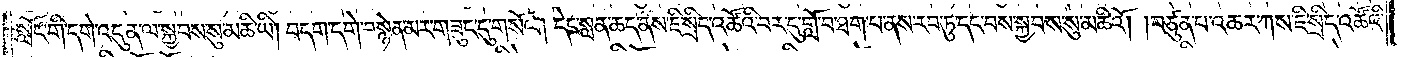སློང་གི་དགེ་འདུན་ལ་སྐྱབས་སུ་མཆི་ཡི། བདག་དགེ་བསྙེན་མར་གཟུང་དུ་གསོལ། དེང་སླན་ཆད་ནས་ཇི་སྲིད་འཚོའི་བར་དུ་གློ་བ་ཐག་པ་ནས་རབ་ཏུ་དང་བས་སྐྱབས་སུ་མཆིའོ། །བཙུན་པ་འཆར་ཀས་ཇི་སྲིད་འཚོའི་
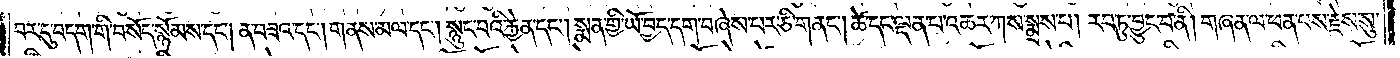བར་དུ་བདག་གི་བསོད་སྙོམས་དང༌། ན་བཟའ་དང༌། གནས་མལ་དང༌། སྙུང་བའི་རྐྱེན་དང༌། སྨན་གྱི་ཡོ་བྱད་དག་བཞེས་པར་ཅི་གནང༌། ཚེ་དང་ལྡན་པ་འཆར་ཀས་སྨྲས་པ། རབ་ཏུ་བྱུང་བ་ནི། གཞན་ལ་ཕན་པས་རྗེས་སུ་
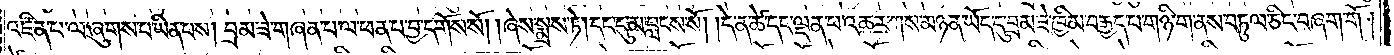འཛིན་པ་ལ་ཞུགས་པ་ཡིན་པས། བྲམ་ཟེ་གཞན་པ་ལ་ཕན་པ་བྱ་དགོས་སོ། །ཞེས་སྨྲས་ཏེ། དང་དུ་མ་བླངས་སོ། །དེ་ན་ཚེ་དང་ལྡན་པ་འཆར་ཀས་མཉན་ཡོད་དུ་བྲམ་ཟེ་ཁྱིམ་བརྒྱད་པ་གཉི་ག་ནས་བཏུལ་ཅིང་བཞག་གོ །
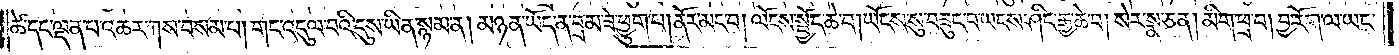ཚེ་དང་ལྡན་པ་འཆར་ཀས་བསམ་པ། གང་འདུལ་བའི་དུས་ཡིན་སྙམ་ན། མཉན་ཡོད་ན་བྲམ་ཟེ་ཕྱུག་པ། ནོར་མང་བ། ལོངས་སྤྱོད་ཆེ་བ། ཡོངས་སུ་བཟུང་བ་ཡང་ས་ཤིང་རྒྱ་ཆེ་བ། སེར་སྣ་ཅན། མིག་ཕྲ་བ། བྱ་རོག་ལ་ཡང་
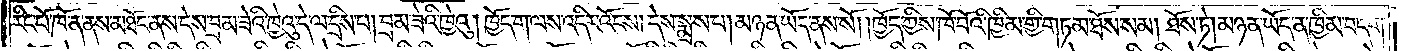རིང་པོ་ཁོ་ན་ནས་མཐོང་ནས་དེས་བྲམ་ཟེའི་ཁྱེའུ་དེ་ལ་དྲིས་པ། བྲམ་ཟེའི་ཁྱེའུ། ཁྱོད་ག་ལས་འདིར་འོངས། དེས་སྨྲས་པ། མཉན་ཡོད་ནས་སོ། །ཁྱོད་ཀྱིས་ཁོ་བོའི་ཁྱིམ་གྱི་གཏམ་ཐོས་སམ། ཐོས་ཏེ། མཉན་ཡོད་ན་ཁྱིམ་བདག་
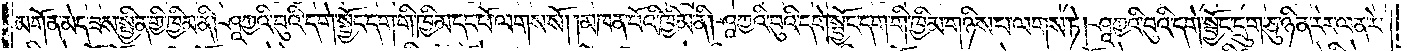མགོན་མེད་ཟས་སྦྱིན་གྱི་ཁྱིམ་ནི། ཤཱཀྱའི་བུའི་དགེ་སྦྱོང་དག་གི་ཁྱིམ་དང་པོ་ལགས་སོ། །མཁན་པོའི་ཁྱིམ་ནི། ཤཱཀྱའི་བུའི་དགེ་སྦྱོང་དག་གི་ཁྱིམ་གཉིས་པ་ལགས་ཏེ། ཤཱཀྱའི་བུའི་དགེ་སྦྱོང་དྲུག་ཅུ་ཉིན་རེར་ལན་རེ་
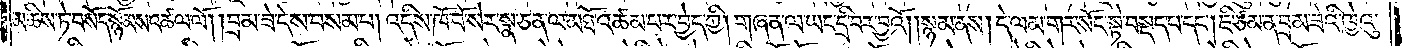མཆིས་ཏེ་བསོད་སྙོམས་འཚལ་ལོ། །བྲམ་ཟེ་དེས་བསམ་པ། འདིས་ཁོ་བོ་སེར་སྣ་ཅན་ལ་མཐོ་འཚམ་པར་བྱེད་ཀྱི། གཞན་ལ་ཡང་དྲི་བར་བྱའོ། །སྙམ་ནས། དེ་ལམ་གར་སོང་སྟེ་བསྡད་པ་དང༌། ཇི་ཙམ་ན་བྲམ་ཟེའི་ཁྱེའུ་
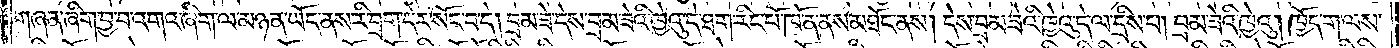གཞན་ཞིག་བྱ་བ་འགའ་ཞིག་ལ་མཉན་ཡོད་ནས་རི་བྲག་དེར་སོང་བ་དེ། བྲམ་ཟེ་དེས་བྲམ་ཟེའི་ཁྱེའུ་ད་ཐག་རིང་པོ་ཁོ་ན་ནས་མཐོང་ནས། དེས་བྲམ་ཟེའི་ཁྱེའུ་དེ་ལ་དྲིས་པ། བྲམ་ཟེའི་ཁྱེའུ། ཁྱོད་ག་ལས་
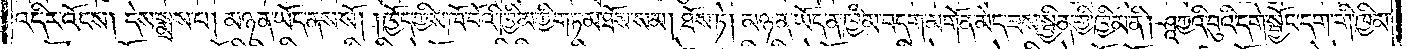འདིར་འོངས། དེས་སྨྲས་པ། མཉན་ཡོད་ནས་སོ། །ཁྱོད་ཀྱིས་ཁོ་བོའི་ཁྱིམ་གྱི་གཏམ་ཐོས་སམ། ཐོས་ཏེ། མཉན་ཡོད་ན་ཁྱིམ་བདག་མགོན་མེད་ཟས་སྦྱིན་གྱི་ཁྱིམ་ནི། ཤཱཀྱའི་བུའི་དགེ་སྦྱོང་དག་གི་ཁྱིམ་
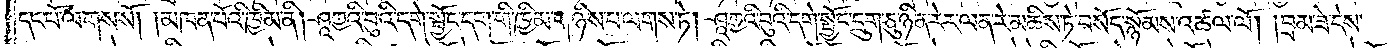དང་པོ་ལགས་སོ། །མཁན་པོའི་ཁྱིམ་ནི། ཤཱཀྱའི་བུའི་དགེ་སྦྱོང་དག་གི་ཁྱིམ་གཉིས་པ་ལགས་ཏེ། ཤཱཀྱའི་བུའི་དགེ་སྦྱོང་དྲུག་ཅུ་ཉིན་རེར་ལན་རེ་མཆིས་ཏེ་བསོད་སྙོམས་འཚལ་ལོ། །བྲམ་ཟེ་དེས་
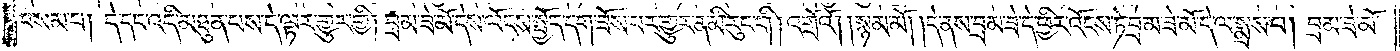བསམ་པ། དེ་དང་འདི་མཐུན་པས་དེ་ལྟར་གྱུར་གྱི། བྲམ་ཟེ་མོ་དེས་ལོངས་སྤྱོད་དག་ཟོས་པར་གྱུར་ན་མི་རུང་གི། འགྲོའོ། །སྙམ་མོ། །དེ་ནས་བྲམ་ཟེ་དེ་ཕྱིར་འོངས་ཏེ་བྲམ་ཟེ་དེ་ལ་སྨྲས་པ། བྲམ་ཟེ་མོ་
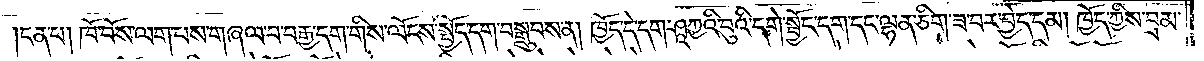ངན་པ། ཁོ་བོས་ལག་པས་གཞལ་བ་བརྒྱ་དག་གིས་ལོངས་སྤྱོད་དག་བསྒྲུབས་ན། ཁྱོད་དེ་དག་ཤཱཀྱའི་བུའི་དགེ་སྦྱོང་དག་དང་ལྷན་ཅིག་ཟ་བར་བྱེད་དམ། ཁྱོད་ཀྱིས་བྲམ་
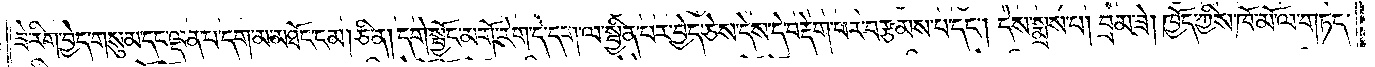ཟེ་རིག་བྱེད་གསུམ་དང་ལྡན་པ་དག་མ་མཐོང་ངམ། ཅི་ན། དགེ་སྦྱོང་མགོ་རེག་དེ་དག་ལ་སྦྱིན་པར་བྱེད་ཅེས་དེས་དེ་བརྡེག་པར་བརྩམས་པ་དང༌། དེས་སྨྲས་པ། བྲམ་ཟེ། ཁྱོད་ཀྱིས་ཁོ་མོ་ལ་གཏད་
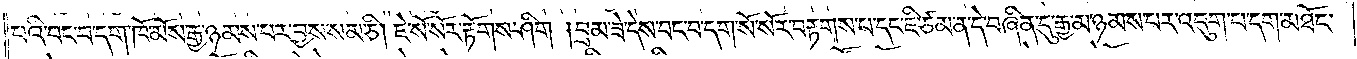པའི་བང་བ་དག་ཁོ་མོས་རྒྱ་ཉམས་པར་བྱས་སམ་ཅི། ཇེ་སོ་སོར་རྟོགས་ཤིག །བྲམ་ཟེ་དེས་བང་བ་དག་སོ་སོར་བརྟགས་པ་དང་ཇི་ཙམ་ན་དེ་བཞིན་དུ་རྒྱ་མ་ཉམས་པར་འདུག་པ་དག་མཐོང་
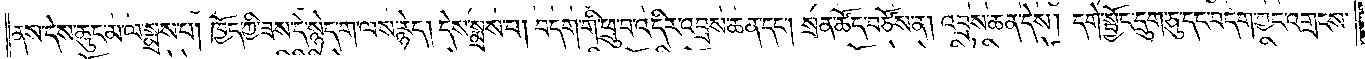ནས་དེས་ཆུང་མ་ལ་སྨྲས་པ། ཁྱོད་ཀྱི་ཟས་དེ་སྙེད་ག་ལས་རྙེད། དེས་སྨྲས་པ། བདག་གི་ཕྲུ་བ་འདིར་འབྲས་ཆན་དང༌། སྲན་ཚོད་བཙོས་ན། འབྲས་ཆན་དེས། དགེ་སྦྱོང་དྲུག་ཅུ་དང་བདག་ཀྱང་འགྲངས་
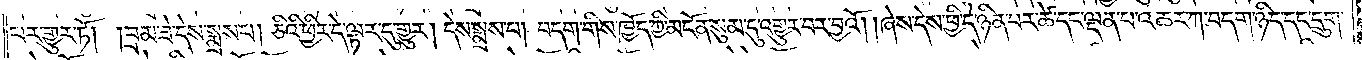པར་གྱུར་ཏོ། །བྲམ་ཟེ་དེས་སྨྲས་པ། ཅིའི་ཕྱིར་དེ་ལྟར་དུ་གྱུར། དེས་སྨྲས་པ། བདག་གིས་ཁྱོད་ཀྱི་མངོན་སུམ་དུ་འགྱུར་བར་བྱའོ། །ཞེས་དེས་ཕྱི་དེ་ཉིན་པར་ཚེ་དང་ལྡན་པ་འཆར་ཀ་བདག་ཉིད་དང་དྲུག་
